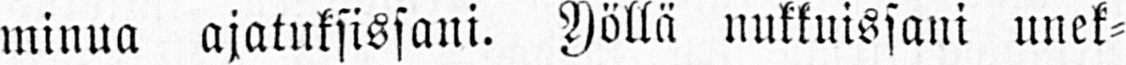minua ajatuksissani. Yöllä nukkuissani unek-
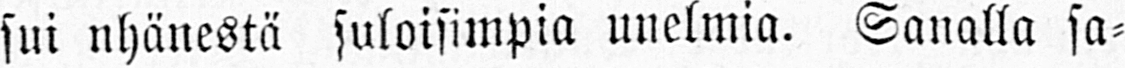sui nhänestä suloisimpia unelmia. Sanalla sa-
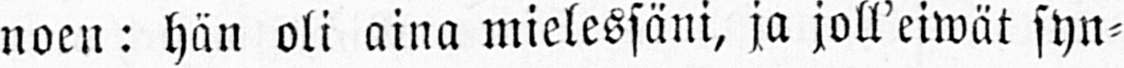noen: hän oli aina mielessäni, ja joll'eiwät syn-
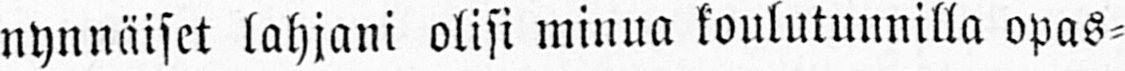nynnäiset lahjani olisi minua koulutunnilla opas-
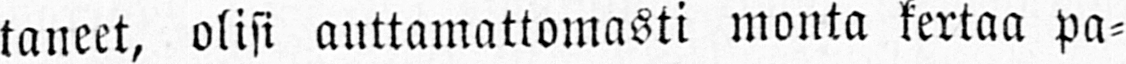taneet, olisi auttamattomasti monta kertaa pa-
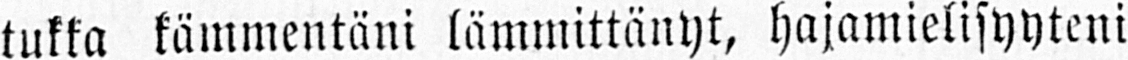tukka kämmentäni lämmittänyt, hajamielisyyteni
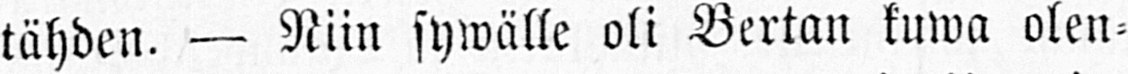tähden. — Niin sywälle oli Bertan kuwa olen-
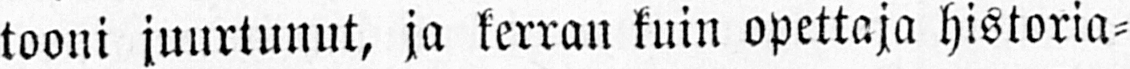tooni juurtunut, ja kerran kuin opettaja historia-
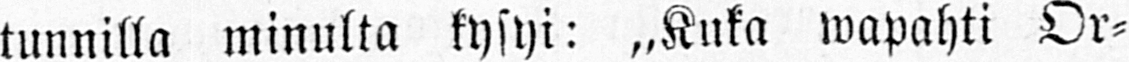tunnilla minulta kysyi: „Kuka wapahti Or-
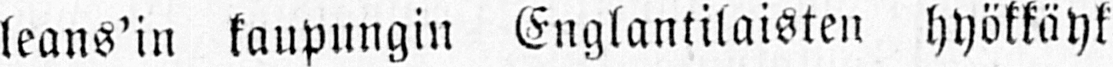leans'in kaupungin Englantilaisten hyökkäyk-
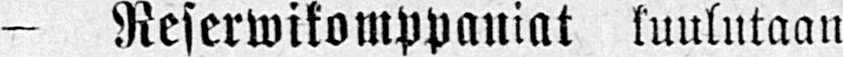- Reserwikomppaniat kuulutaan
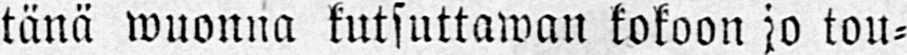tänä wuonaa kutsuttawan kokoon jo tou-
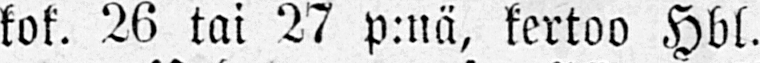kok. 26 tai 27 p:nä, kertoo Hbl.
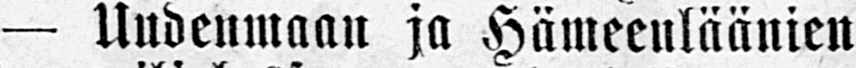— Uudenmaan ja Hämeenläänien
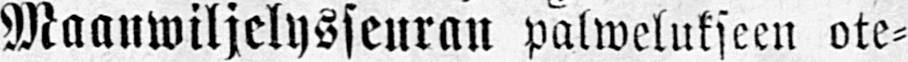Maanwiljelysseuran palwelukseen ote-
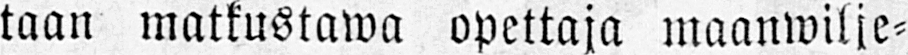taan matkustawa opettaja maanwilje-
